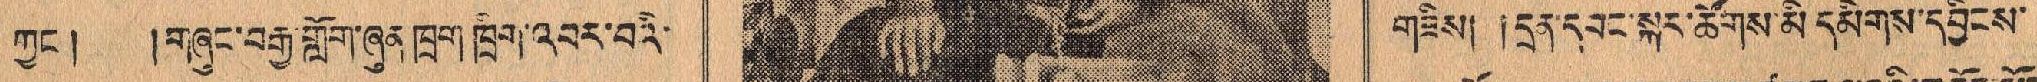ཀྱང་། །གཞུང་བརྒྱ་གློག་ཞུན་ཁྲག་ཁྲག་འབར་བའི་ གཟིས། །དྲན་དབང་སྒར་ཚོགས་མི དམིགས་དབྱིངས་
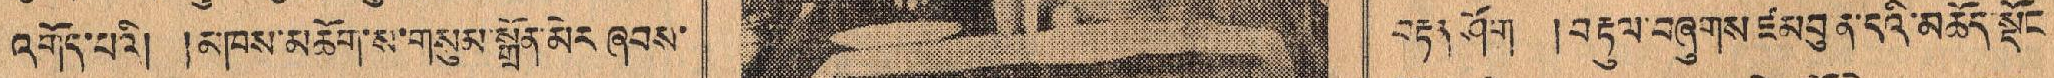འགོད་པའི། །མཁས་མཆོག་ས་གསུམ་སྒྲོན་མེར ཞབས་ བརྟན་ཤོག །བརྟུལ་བཞུགས་ཛམབུན་དའི་མཆོད་སྡོང
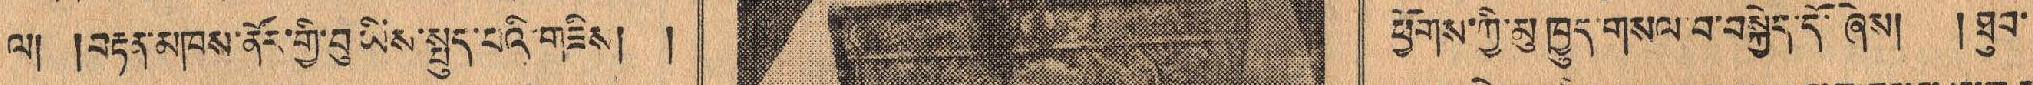ལ། བརྟན་མཁས་ནོར་གྱི་བུ་ཡིས་སྤྱོད་པའི་གཟིས། ། ཕྱོགས་ཀྱི་མུ་ཁྱུད་གསལ་བ་བསྐྱེད་དོ་ཞེས། །ཐུབ་
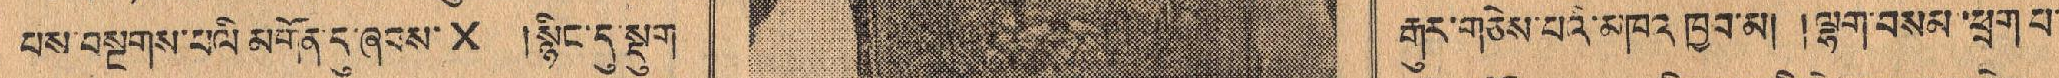པས་བསྔགས་པའི མགོན་དུ་ཞབས་x །སྙིང་དུ་སྡུག རྒུར་གཅེས་པའི་མཁའ ཁྱབ་མ། །ལྷག་བསམ་ཕྲག པ་
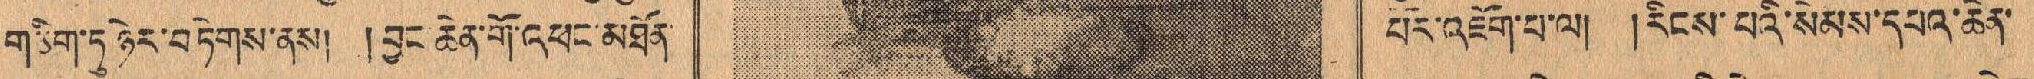གཅིག་ཏུ་ཉེར་བཏེགས་ནས། །བྱང་ཆེན་གོ་འཕྲང་མཐོན་ པར་འཇོག་པ་ལ། །རིངས་པའི་སེམས་དཔའ་ཆེན་
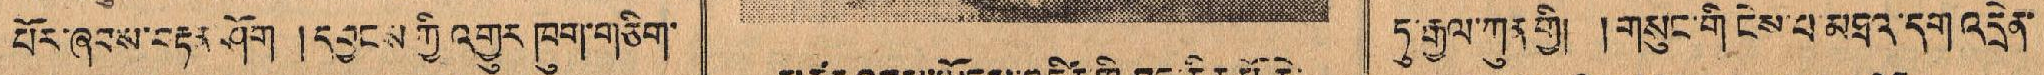པོར་ཞབས་བརྟན་ཤོག །དབྱངས་ཀྱི་འགྱུར ཁུག་གཅིག་ ཏུ་རྒྱལ་ཀུན་གྱི། །གསུང་གི ངེས་པ་མཐའ་དག འདྲེན
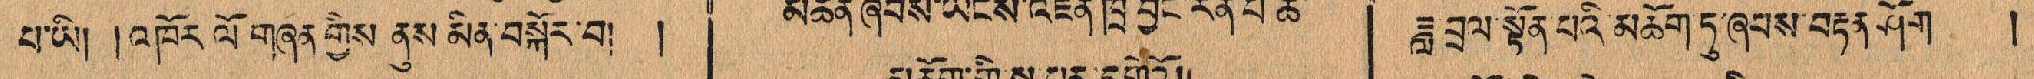པ་ཡི། །འཁོར་ལོ གཞན་གྱིས ནུས་མིན་བསྐོར་བ། ། ཟླ་བྲལ་སྟོན་པའི་མཆོག་ཏུ་ཞབས་བརྟན་ཤོག །
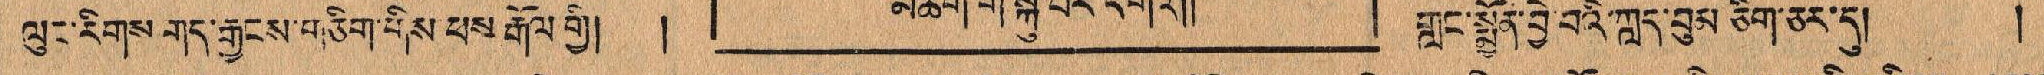ལུང་རིགས གད་རྒྱངས་གཅིག་གིས་ཕས་རྒོལ་གྱི། ། གླང་སྨྱོན་བྱེ་བའི་ཀླད་བུམ ཅིག་ཅར་དུ། །
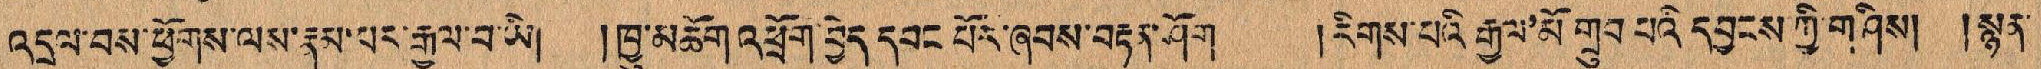འདྲལ་བས་ཕྱོགས་ལས་རྣམ་པར་རྒྱལ་བ་ཡི། །ཁྱུ་མཆོག འཕྲོག་བྱེད དབང་པོར་ཞབས་བརྟན་ཤོག །རིགས་པའི རྒྱལ་མོ གྲུབ་པའི་དབྱངས་ཀྱི་གཤིས། །སྙན་
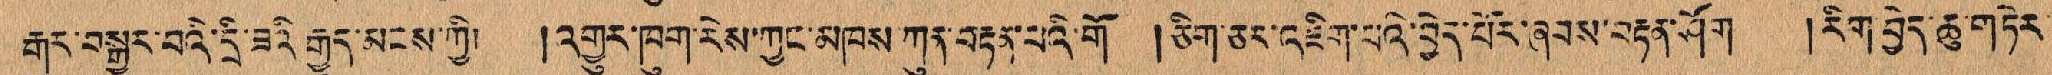རྒུར་བསྒྱུར་བའི་དྲི་ཟའི་རྒྱུད་མངས་ཀྱི། །འགྱུར་ཁུག་རེས་ཀྱང་མཁས་ཀུན་བརྟན་པའི་གོ །ཅིག་ཅར་འཇིག་པའི་བྱེད་པོར་ཞབས་བརྟན་ཤོག །རིག་བྱེད་ཆུ་གཏེར་
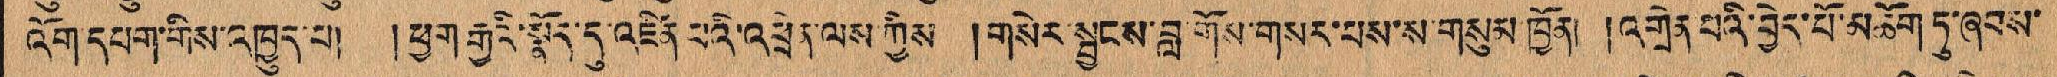འོག་དཔག་གིས་འཁྱུད་པ། །ཕྱག་རྒྱའི་སྣོད་དུ་འཛིན་པའི་འཕྲིན ལས་ཀྱིས །གསེར་སྦྱངས་བླ གོས་གསར་པས་ས་གསུམ་ཁྱོན། །འགྲེན་པའི་བྱེད་པོ་མཆོག་ཏུ་ཞབས་
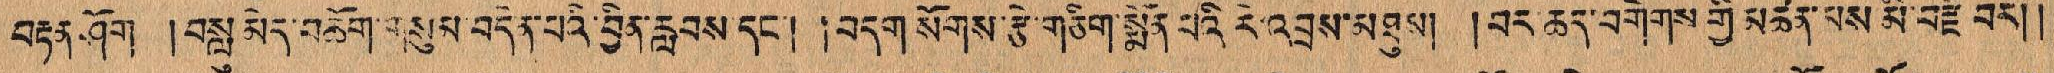བརྟན་ཤོག །བསླུ་མེད་མཆོག་གསུམ་བདེན་པའི་བྱིན་རླབས་དང་། །བདག་སོགས་རྩེ་གཅིག་སྨོན་པའི་རེ་འབྲས་མཐུས། །བར་ཆད་བགེགས་གྱི་མཚན་པས་མི་བརྗི་བར།།
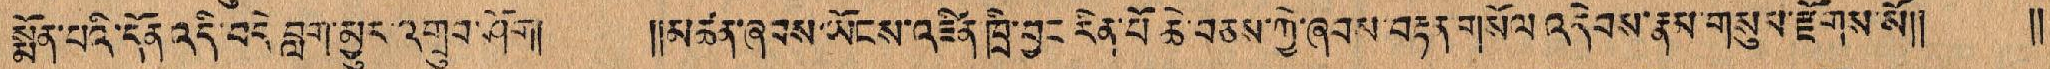སྨོན་པའི་དོན་འདི་བདེ་བླག་མྱུར་འགྲུབ་ཤོག། །།མཚན་ཞབས་ཡོངས་འཛིན་ཁྲི་བྱང་རིན་པོ་ཆེ་བཅས་ཀྱི་ཞབས་བརྟན གསོལ འདེབས་རྣམ་གསུམ་རྫོགས་ས།། །།
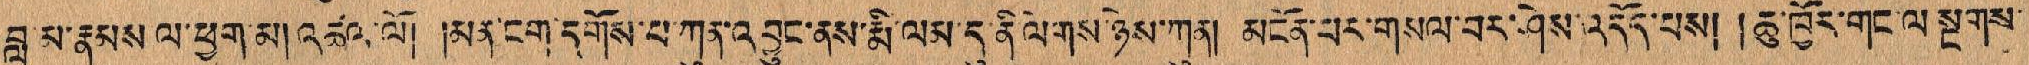བླ་མ་རྣམས ལ་ཕྱག་མ། འཚལ་ལོ། །མན་ངག་དགོས་པ་ཀུན་འབྱུང་ནས་རྨི་ལམ་དུ་ནི་ལེགས་ཉེས་ཀུན། །མངོན་པར་གསལ་བར་ཤེས་འདོད་པས། །ཆུ་ཁྱོར་གང་ལ་སྔགས་
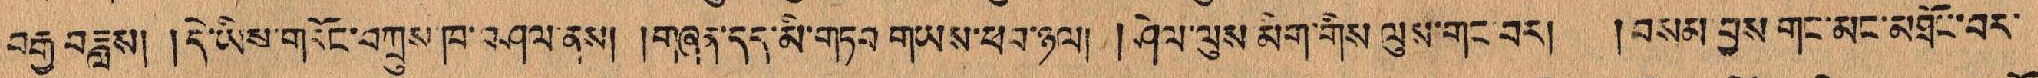བརྒྱ་བཟླས། །དེ་ཡིས་གརོང་འཀྲུས་ཁ་བཤལ་ནས། །གཞན་དད་མི་གཏབ་གཡས་ཕབ་ཉལ། །ཤེལ་ལུས་མིག་གིས་ལུས་གང་བར། །བསམ་བྱས གང་མང་མཐོང་བར་
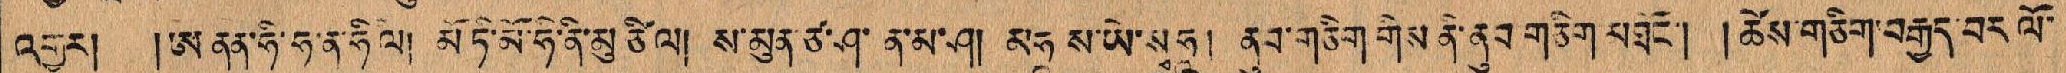འགྱུར། །ཨ་ནན་ཧི་ཧ་ན་ཧི་ལ། མོ་ཡི་མོ་ཧི་ནི་མུ་ཙི་ལ། ས་མུན་ཙ་ན་ན་མ་ཤ། མཧཱ ས་ཡེ་སྭཱཧཱ། ནུབ་གཅིག གིས་ནི་ནུས་གཅིག་མཐོང་། །ཚེས་གཅིག་བརྒྱད་བར་ལོ་
